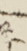༢
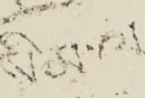སིམ་ལ་
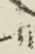༡
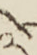༢
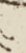༤
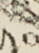༡༠
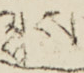ལྷ ས
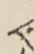༨
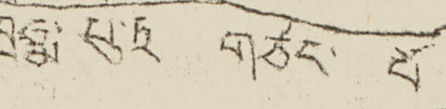བྭཧྨ་པུ་ཏྲ གཙང་ པོ་
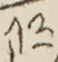༡༢
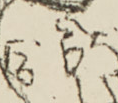ཏུ་ཏྲིར་
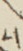པུ་
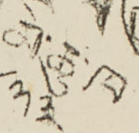མེ་ཆུ་ཁ་
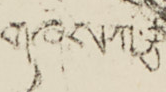གཞིས་ཀ་རྩེ་
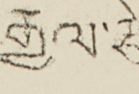རྒྱལ་རྩེ་
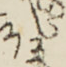༢༣
